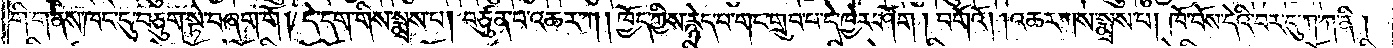གི་གནས་ཁང་དུ་བཅུག་སྟེ་བཞག་གོ། དེ་དག་གིས་སྨྲས་པ། བཙུན་པ་འཆར་ཀ། ཁྱོད་ཀྱིས་རྙེད་པ་གང་གྲུབ་པ་དེ་ཁྱེར་ཤོག། བགོའོ། །འཆར་ཀས་སྨྲས་པ། ཁོ་བོས་དེའི་བར་དུ་ཀ་ཀ་ནི།
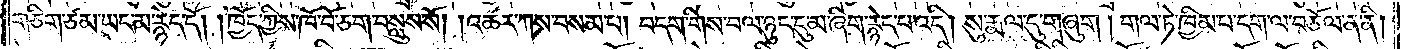གཅིག་ཙམ་ཡང་མ་རྙེད་དོ། །ཁྱོད་ཀྱིས་ཁོ་བོ་ཅག་བསླུས་སོ། །འཆར་ཀས་བསམ་པ། བདག་གིས་བལ་ཉུང་དུ་མ་ཞིག་རྙེད་པ་འདི། སུ་རྨལ་དུ་གཞུག ། གལ་ཏེ་ཁྱིམ་པ་དག་ལ་བཅོལ་ན་ནི།
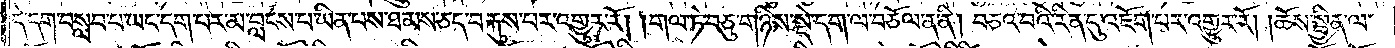དེ་དག་བསླབ་པ་ཡང་དག་པར་མ་བླངས་པ་ཡིན་པས་ཐམས་ཅད་བརྐུས་པར་འགྱུར་རོ། །གལ་ཏེ་བཅུ་གཉིས་སྡེ་དག་ལ་བཅོལ་ན་ནི། བཅའ་བའི་རིན་དུ་འཇོག་པར་འགྱུར་རོ། །ཆོས་སྦྱིན་ལ་
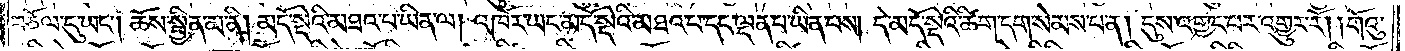བཅོལ་དུ་ཡང༌། ཆོས་སྦྱིན་མ་ནི། མདོ་སྡེའི་མཐའ་པ་ཡིན་ལ། འཁོར་ཡང་མདོ་སྡེའི་མཐའ་པ་དང་ལྡན་པ་ཡིན་པས། དེ་མདོ་སྡེའི་ཚིག་དག་སེམས་པ་ན། དུས་འགྱང་པར་འགྱུར་རོ། །གོའུ་
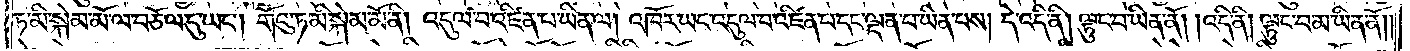ཏ་མི་སྐེམ་མོ་ལ་བཅོལ་དུ་ཡང༌། གོའུ་ཏ་མི་སྐེམ་མོ་ནི། འདུལ་བ་འཛིན་པ་ཡིན་ལ། འཁོར་ཡང་འདུལ་བ་འཛིན་པ་དང་ལྡན་པ་ཡིན་པས། དེ་འདི་ནི། ལྟུང་བ་ཡིན་ནོ། །འདི་ནི། ལྟུང་བ་མ་ཡིན་ནོ༎
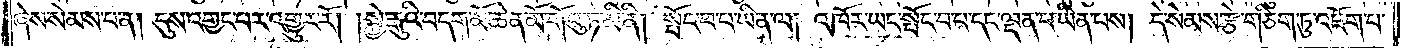ཞེས་སེམས་པ་ན། དུས་འགྱང་པར་འགྱུར་རོ། །སྐྱེ་རྒུའི་བདག་མོ་ཆེན་མོ་གོའུ་ཏ་མི་ནི། སྤོང་བ་པ་ཡིན་ལ། འཁོར་ཡང་སྤོང་བ་པ་དང་ལྡན་པ་ཡིན་པས། དེ་སེམས་རྩེ་གཅིག་ཏུ་འཇོག་པ་
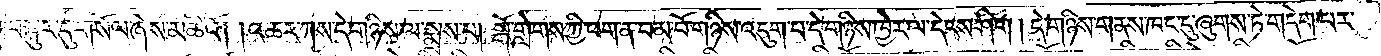བསྐུར་དུ་གསོལ་ཞེས་མཆིའོ། །འཆར་ཀས་དེ་གཉིས་ལ་སྨྲས་པ། སྒོ་གླེགས་ཀྱི་ཕག་ན་བམ་པོ་གཉིས་འདུག་པ་དེ་གཉིས་ཁྱེར་ལ་དེངས་ཤིག །དེ་གཉིས་གནས་ཁང་དུ་ཞུགས་ཏེ་གདེག་པར་
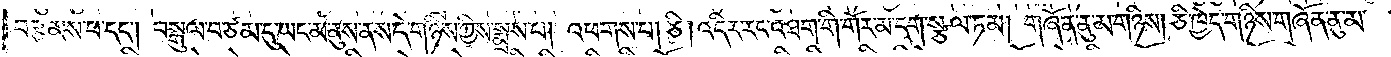བརྩམས་པ་དང༌། བསྒུལ་བ་ཙམ་དུ་ཡང་མ་ནུས་ནས་དེ་གཉིས་ཀྱིས་སྨྲས་པ། འཕགས་པ། ཅི། འདིར་རང་འཐག་གི་གོར་མ་དག་སྩལ་ཏམ། གཞོན་ནུ་མ་གཉིས། ཅི་ཁྱེད་གཉིས་གཞོན་ནུ་མ་
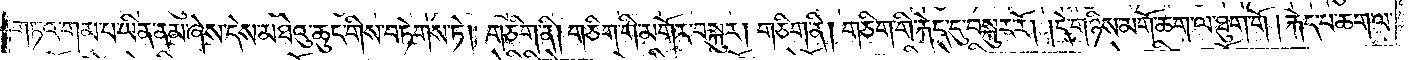གཏའ་གམ་པ་ཡིན་ནམ་ཞེས་དེས་མཐེའུ་ཆུང་གིས་བཏེགས་ཏེ། གཅིག་ནི། གཅིག་གི་མགོར་བསྐུར། གཅིག་ནི། གཅིག་གི་རྐེད་དུ་བསྐུར་རོ། །དེ་གཉིས་མགོ་ཆག་ལ་ཐུག་གོ །རྐེད་པ་ཆག་ལ་
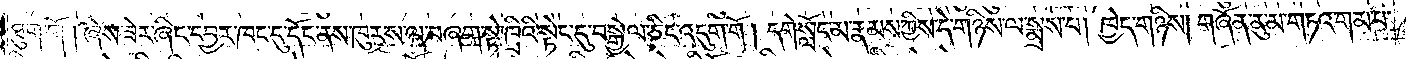ཐུག་གོ །ཞེས་ཟེར་ཞིང་དབྱར་ཁང་དུ་དོང་ནས་ཁུར་ས་ལ་བཞག་སྟེ་ཁྲིའི་སྟེང་དུ་བསྒྱེལ་ཅིང་འདུག་གོ། དགེ་སློང་མ་རྣམས་ཀྱིས་དེ་གཉིས་ལ་སྨྲས་པ། ཁྱེད་གཉིས། གཞོན་ནུ་མ་གཏའ་གམ་པ་
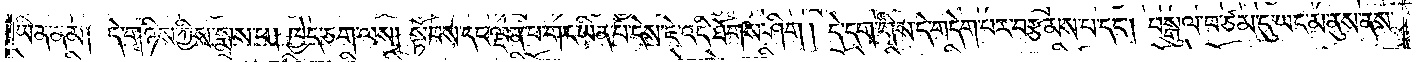ཡིན་ནམ། དེ་གཉིས་ཀྱིས་སྨྲས་པ། ཁྱེད་ཅག་ལས། སྟོབས་དང་ལྡན་པ་གང་ཡིན་པ་དེས་ཇེ་འདི་ཐོགས་ཤིག །དེ་དག་གིས་དེ་གདེག་པར་བརྩམས་པ་དང༌། བསྒུལ་བ་ཙམ་དུ་ཡང་མ་ནུས་ནས་
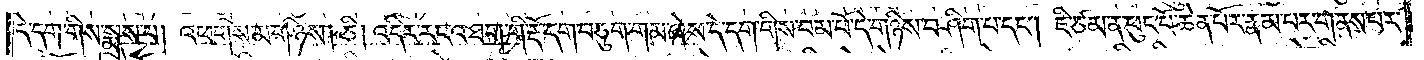དེ་དག་གིས་སྨྲས་པ། འཕགས་མ་གཉིས། ཅི། འདིར་རང་འཐག་གི་རྡོ་དག་བཅུག་གམ་ཞེས་དེ་དག་གིས་བམ་པོ་དེ་གཉིས་བཤིག་པ་དང༌། ཇི་ཙམ་ན་ཕུང་པོ་ཆེན་པོར་རྣམ་པར་གནས་པར་
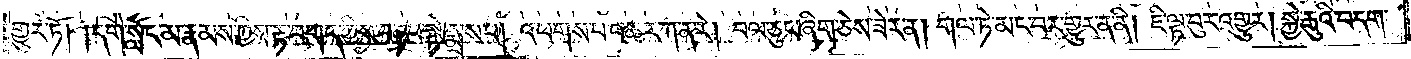གྱུར་ཏོ། །དགེ་སློང་མ་རྣམས་ཀྱིས་རྟ་བགད་ཀྱིས་བཏབ་སྟེ་སྨྲས་པ། འཕགས་པ་འཆར་ཀ་ན་རེ། བལ་ཅུང་ཞིག་ཅེས་ཟེར་ན། གལ་ཏེ་མང་བར་གྱུར་ན་ནི། ཇི་ལྟ་བུར་འགྱུར། སྐྱེ་རྒུའི་བདག་
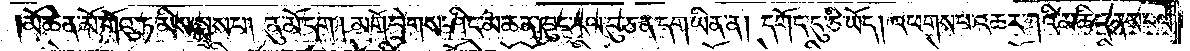མོ་ཆེན་མོ་གོའུ་ཏ་མིས་སྨྲས་པ། ནུ་མོ་དག། མགོ་བྲེགས་ཤིང་མཆན་ཁུང་རལ་བུ་ཅན་དག་ཡིན་ན། དགོད་དུ་ཅི་ཡོད། འཕགས་པ་འཆར་ཀའི་མཆིད་ནས་བལ་
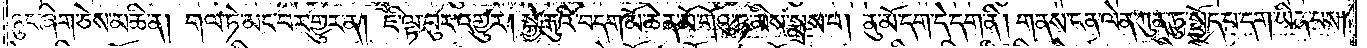ཉུང་ཞིག་ཅེས་མཆི་ན། གལ་ཏེ་མང་བར་གྱུར་ན། ཇི་ལྟ་བུར་འགྱུར། སྐྱེ་རྒུའི་བདག་མོ་ཆེན་མོ་གོའུ་ཏ་མིས་སྨྲས་པ། ནུ་མོ་དག་དེ་དག་ནི། གནས་ངན་ལེན་ཀུན་ཏུ་སྤྱོད་པ་དག་ཡིན་པས།
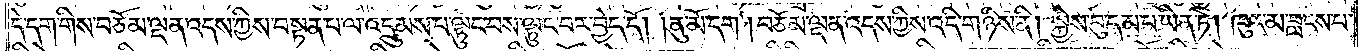དེ་དག་གིས་བཅོམ་ལྡན་འདས་ཀྱིས་བསྟན་པ་ལ་འདྲུམས་པ་ལྟུང་བས་ལྟུང་བར་བྱེད་དོ། །ནུ་མོ་དག། བཅོམ་ལྡན་འདས་ཀྱིས་འདི་གཉིས་ནི། སྐྱེས་བུ་དམ་པ་ཡིན་ཏེ། ཁུར་མ་བླངས་པ་
